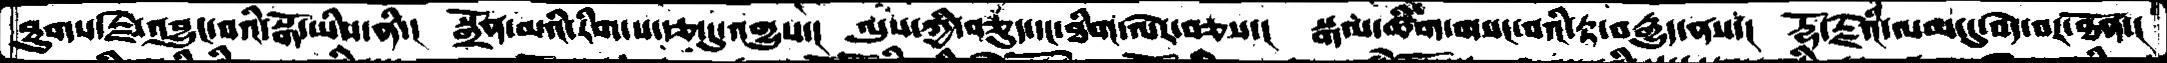ཐུགས་རྗེ་འབྱུང་བའི་སྒོ་ཡིས་ནི་།  སྒྲོན་མའི་རིག་པ་རྩ་དུ་འགྱུས་།   ལུས་ཀྱི་བཅུད་དང་ཐིག་ལེར་བཅས་།  སྒལ་ཚིག་གསང་བའི་རྟ་བརྒྱུད་ནས་།  རྡོ་རྗེའི་ལམ་དུ་བདེ་བར་ཐོན་།
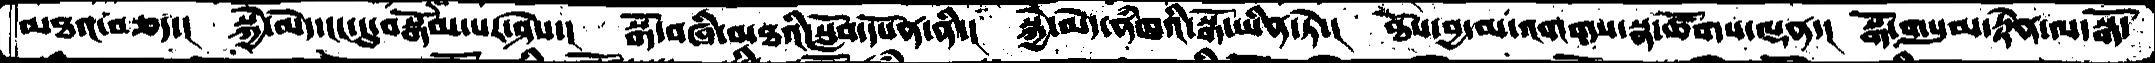མཐའ་བཅད་།  སྐྱེ་མེད་ངང་དུ་བསྒོམ་པར་ཤེས་།  སྒོ་བཞི་མཐའི་སློབ་དཔོན་ནི་།  སྐྱེ་མེད་ནཾཁའི་སྒོ་ཡིན་ཏེ་།  ཐོས་བྱ་མ་འགགས་སྣ་ཚོགས་ལྡན་།  སྒོ་གསུམ་རྟེན་ལ་སྒོ་
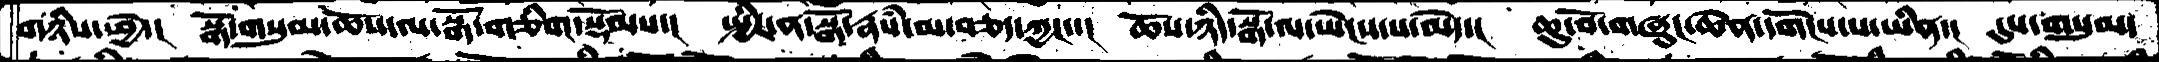གཉིས་ཕྱེ་།  སྒོ་གསུམ་ཆོས་ལ་སྒོ་གཅིག་སྡོམས་།   སྤྱིར་ན་སྒོ་རྣཾས་མ་བཅད་ཀྱང་་།   ཆོས་ཉིད་སྒོ་ལ་ཡེངས་པ་མེད་།  ཆུ་བོ་གཞུང་ཆེན་དགོངས་པ་ཡིན་།  དུས་གསུམ་
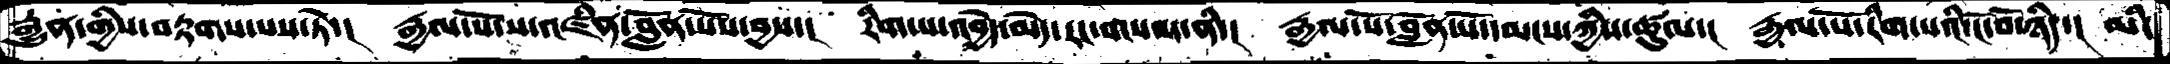རྒྱུན་གྱིས་བརྟགས་པས་ཏེ་།  རྒྱལ་པོ་ས་འཛིན་བློན་པོས་བྱས་།  རིག་པ་འབྱེད་མེད་རང་གསལ་ནི་།  རྒྱལ་པོ་བློན་པོ་དམངས་ཀྱིས་ཚུལ་།  རྒྱལ་པོ་རིག་པའི་ངོ་བོ་ཉིད་།  མི་
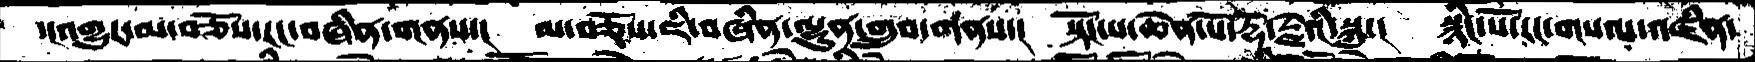་།འགྱུར་མ་བཅོས་རང་བཞིན་གནས་།  མ་བཅོས་ཇི་བཞིན་ལྷུན་གྲུབ་གནས་།  སྟོང་པ་ཆེན་པོ་རྡོ་རྗེའི་སྐུ་།  སྙིང་པོ་རང་གསལ་འཛིན་
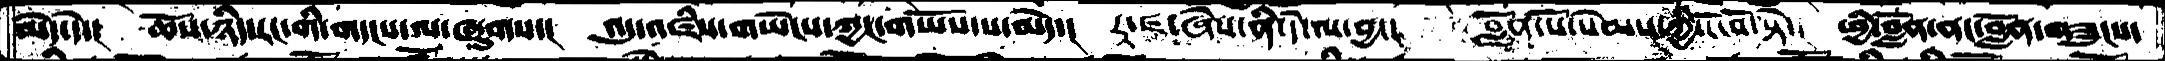མེད་དེ་།  ཆོས་ཉིད་རང་གི་གདངས་ལ་ཞུགས་།   འདུ་འཛིས་གཡེངས་ཀྱང་གཡོས་པ་མེད་།  རཱ་ཛ་ཞེས་ནི་དེ་ལ་བྱ་།  བློན་པོ་སེམས་ཀྱི་ངོ་བོ་སྟེ་།  ཕྱི་བློན་ནང་བློན་གཟུངས་
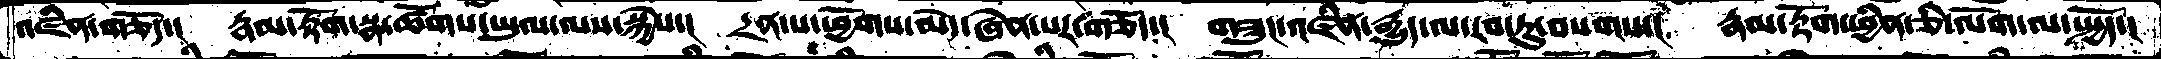འཛིན་གཅོད་།  རྣམ་རྟོག་སྣ་ཚོགས་ཡུལ་ལས་སྐྱེས་།  དྲན་པ་ཕྱོགས་མེད་ཞེན་པར་གཅོད་།  གཟུང་འཛིན་རྒྱུད་ལ་རབ་ཏུ་བསགས་།  རྣམ་རྟོག་ཕྱིན་ཅི་ལོག་ལ་སྤྱོད་།
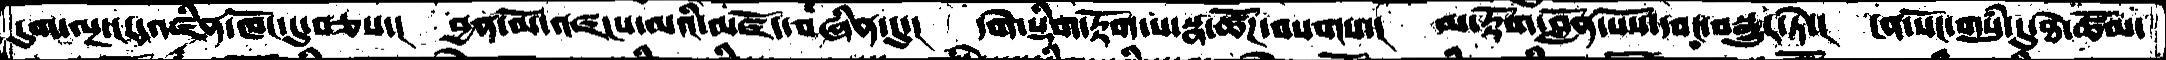དུག་ལྔ་ངར་འཛིན་ཁོང་དུ་བཅས་།  བྱན་མོ་འཛངས་མའི་མཛོད་བཞིན་དུ་།  དགེ་སྡིག་རྟོག་པ་སྣ་ཚོཌ་བསགས་།  མ་རྟོག་བློན་པོས་དབང་བསྒྱུར་ཏེ་།  ངན་སོང་གསུཾ་དུ་ཐེ་ཚོམ་
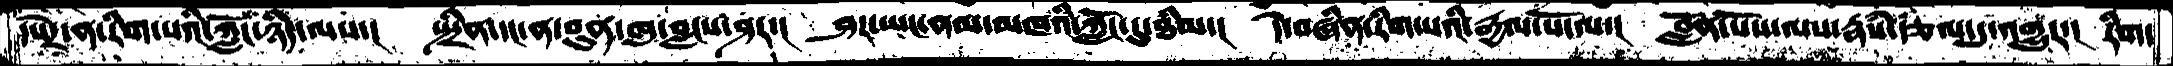དཔེར་ན་རིག་པའི་ཀློང་ཉིད་ལས་།  སྤྲིན་དང་ན་བུན་ཁུ་བླངས་ཤར་།  ཤར་ཡང་ནམ་མཁའི་ཀློང་དུ་ཐིམ་།  དེ་བཞིན་རིག་པའི་རྒྱལ་པོ་ལ་།  བློན་པོས་ལས་རྣཾས་རྩལ་དུ་འགྱུར་།  རིག་
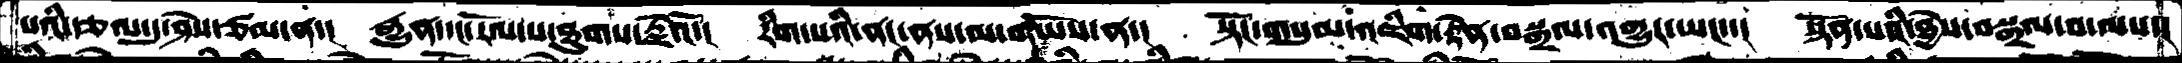པའི་རྩལ་དུ་ཤེས་ཙམ་ན་།  རྒྱུན་དང་རོལ་པ་ཐུགས་རྗེའོ་།  རིག་པའི་ནང་ནས་མ་གཡོས་ན་།  སྟོང་གསུམ་འཇིག་རྟེན་བསྒྲལ་འགྱུར་ཡང་་།  སྟོན་པའི་ཐྱེས་བསྒྲལ་བ་ལས་།
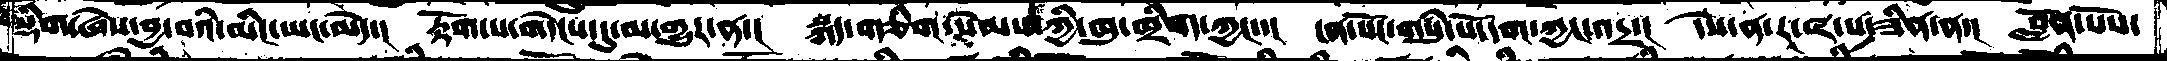སྡིག་ཞེས་བྱ་བའི་མིང་ཡང་མེད་།   རྟོག་པ་གདེངས་དུ་མ་གྱུར་ན་།  སྐད་གཅིག་སེམས་ཀྱི་ཁུ་ཁྲིག་ཀྱང་་།  ངན་སོང་གསུཾ་པོ་དག་ཀྱང་འདྲ་།  དེས་ན་རཱ་ཛཱ་ས་ཟིན་ན་།  བློན་པོས་
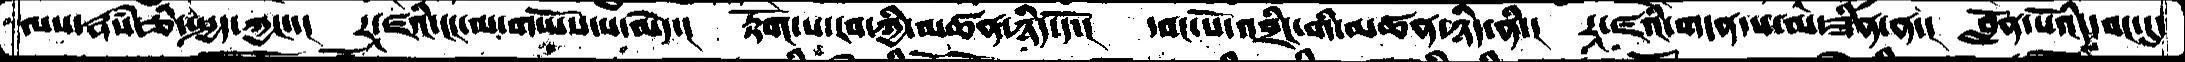ལས་རྣཾས་ཅི་སྤྱད་ཀྱང་་།  རཱ་ཛའི་ངང་ལ་གཡོས་པ་མེད་།  རྟོག་པ་རབ་ཀྱི་མཚན་ཉིད་དོ་།   དབང་པོ་འབྲིང་གི་མཚན་ཉིད་ནི་།  རཱ་ཛའི་གདན་ས་མ་ཟིན་ན་།  བློན་པོའི་དབང་དུ་
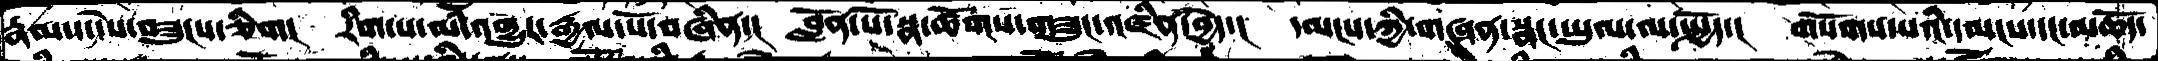རྣམས་དེས་བཟུངས་ཅིག།  རིག་པ་མི་འགྱུར་རྒྱལ་པོ་བཞིན་།  བློན་པོ་སྣ་ཚོགས་གཟུང་འཛིན་བྱེད་།  དམངས་ཀྱི་གཞན་སྣང་ཡུལ་ལ་སྤྱོད་།  གསོགས་པའི་དམངས་དང་མཆོད་
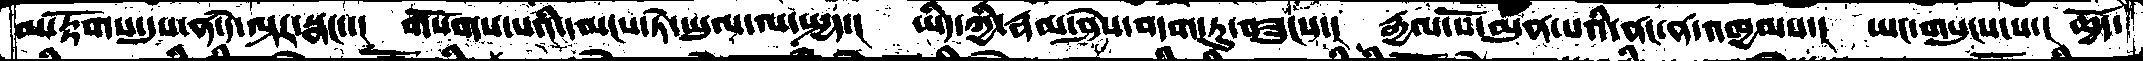མ་རྟོགས་དུས་ན་དེ་ལྟར་སྣང་་།  གསོགས་པའི་དམངས་ཏེ་ཡུལ་ལ་སྤྱད་།  ཡིད་ཀྱི་རྣམ་ཤེས་བདག་ཏུ་བཟུངས་།  རྒྱལ་པོ་མུན་པའི་ནང་ན་འཁྱམས་།  ཡང་གསུངས་པ་། ཆྭོད་
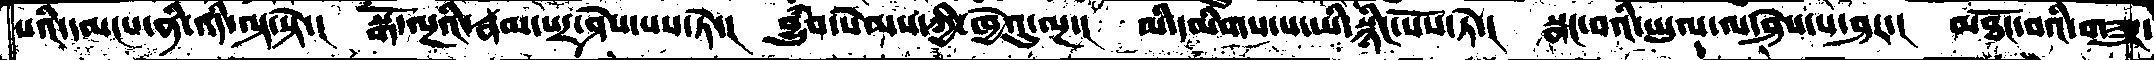པའི་དམངས་ནི་འདི་ལྟ་སྟེ་།  སྒོ་ལྔའི་རྣམ་པར་ཤེས་པས་ཏེ་།  བྱུཾབ་སེམས་ཀྱི་ཁྱེའུ་ལྔ་།  མི་དམིགས་ས་ཡི་སྙིང་པོས་ཏེ་།  སྣང་བའི་ཡུལ་ལ་ཤེས་པ་ཤར་།  མཐོང་བའི་གཟུཌ་
